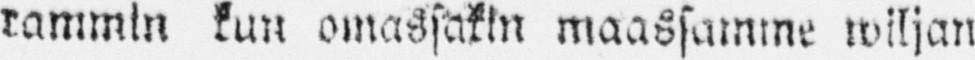rammin kun omassakin maassamme wiljan
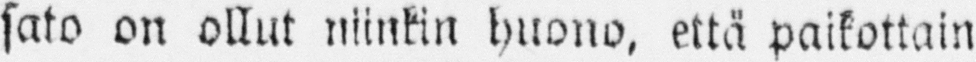sato on ollut niinkin huono, että paikottain
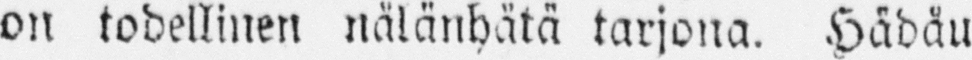on todellinen nälänhätä tarjona. Hädäu
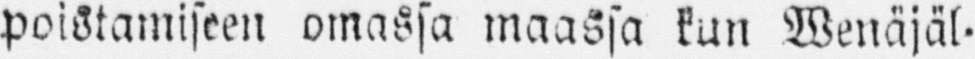poistamiseen omassa maassa kun Wenäjäl-
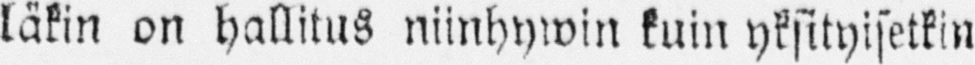läkin on hallitus niinhywin kuin yksityisetkin
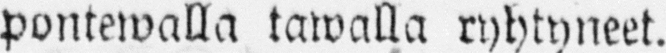pontewalla tawalla ryhtyneet.
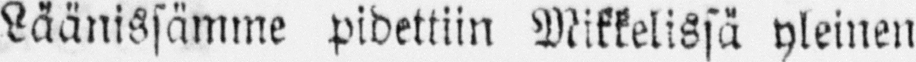Läänissämme pidettiin Mikkelissä yleinen
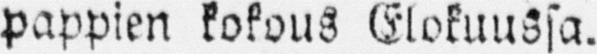pappien kokous Elokuussa.
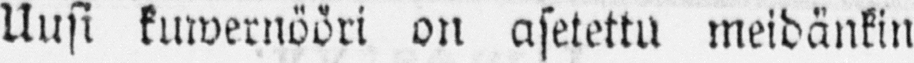Uusi kuwernööri on asetettu meidänkin
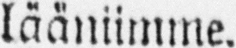lääniimme.
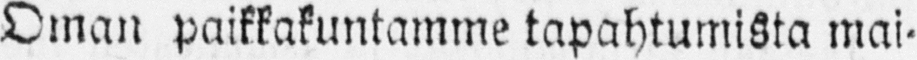Oman paikkakuntamme tapahtumista mai-
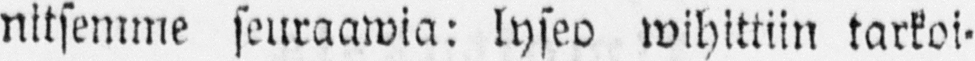nitsemme seuraawia: lyseo wihittiin tarkoi-
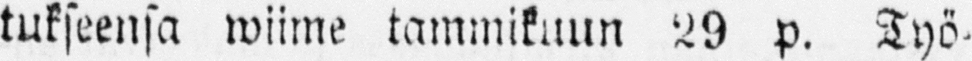tukseensa wiime tammikuun 29 p. Työ-
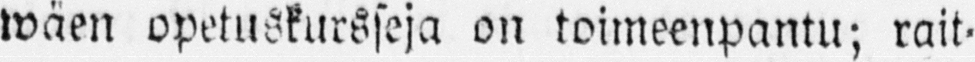wäen opetuskursseja on toimeenpantu; rait-
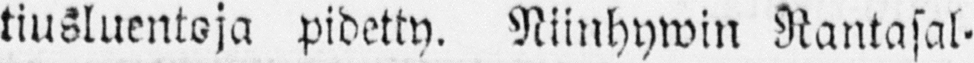tiusluentoja pidetty. Niinhywin Rantasal-
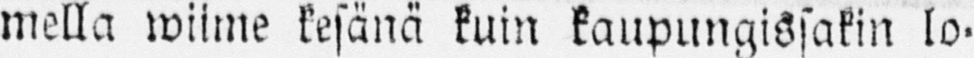mella wiime kesänä kuin kaupungissakin lo-
